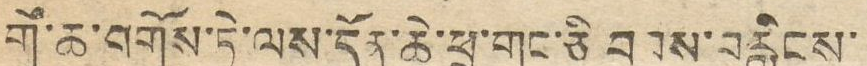གོ་ཆ་བགོས་ཏེ་ལས་དོན་ཆེ་ཕྲ་གང་ཅི བབས་བརླིངས་
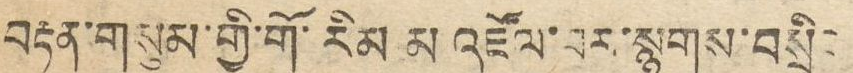བརྟན་གསུམ་གྱི་གོ་རིམ མ འཛོལ་བར་སྙུགས་བསྲིང
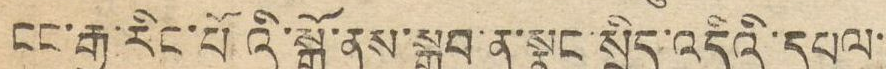ངང་རྒྱུ་རིང་པོའི་སྒོ་ནས་སྒྲུབ་ན་སྣང་སྲིད་འདིའི་དཔལ་
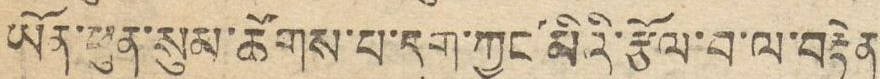ཡོན་ཕུན་སུམ་ཚོགས་པ་དག་ཀྱང་མིའི་རྩོལ་བ་ལ་བརྟེན
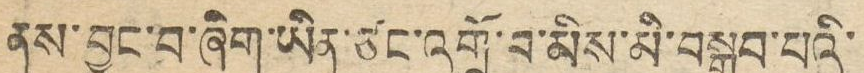ནས་བྱུང་བ་ཞིག་ཡིན་ཙང་འགྲོ་བ་མིས་མི་བསྒྲུབ་པའི་
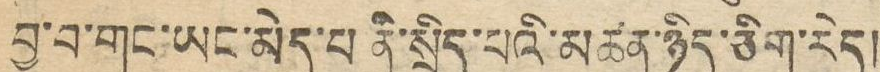བྱ་བ་གང་ཡང་མེད་པ ནི་སྲིད་པའི་མཚན་ཉིད་ཅིག་རེད།
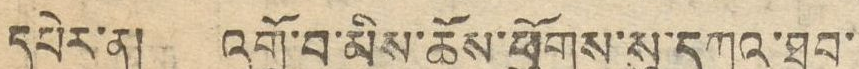དཔེར་ན། འགྲོ་བ་མིས་ཆོས་ཕྱོགས་སུ་དཀའ་ཐུབ་
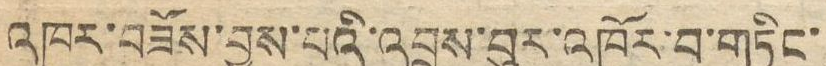འཁུར་བཟོས་བྱས་པའི་འབྲས་བུར་འཁོར་བ་གཏིང་
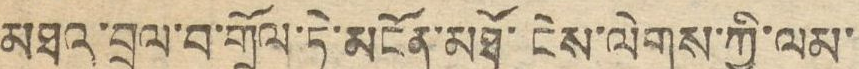མཐའ་བྲལ་བ་གྲོལ་ཏེ་མངོན་མཐོ་ངེས་ལེགས་ཀྱི་ལམ་
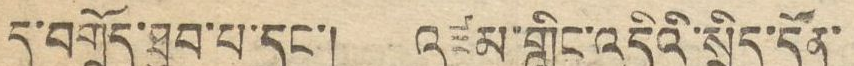དུ་བགྲོད་ཐུབ་པ་དང་། འཛམ་གླིང་འདིའི་སྲིད་དོན་
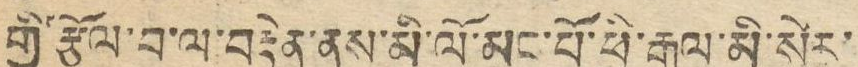གྱི་རྩོལ་བ་ལ་བརྟེན་ནས་མི་ལོ་མང་པོ་ཕྱི་རྒྱལ་མི་སེར་
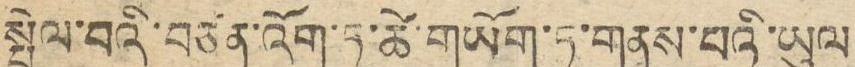སྤེལ་བའི་བཙན་འོག་ཏུ་ཚེ་གཡོག་ཏུ་གནས་པའི་ཡུལ
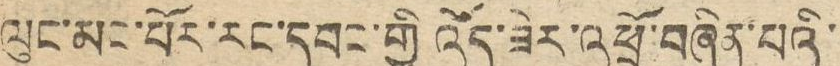ལུང་མང་པོར་རང་དབང་གྱི འོད་ཟེར་འཕྲོ་བཞིན་པའི་
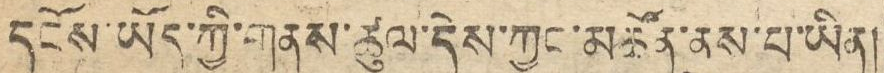དངོས་ཡོད་ཀྱི་གནས་ཚུལ་དེས་ཀྱང་མཚོན་ནུས་པ་ཡིན།
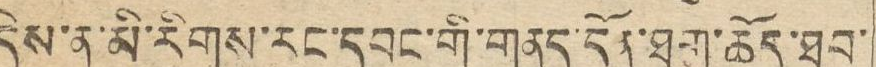དེས་ན་མི་རིགས་རང་དབང་གི་གནད་དོན་ཐག་ཆོད་ཐུབ་
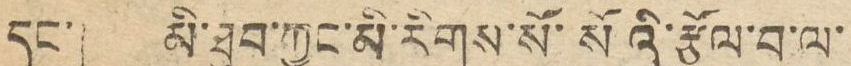དང་། མི་ཐུབ་ཀྱང་མི་རིགས་སོ་སོའི་རྩོལ་བ་ལ་
